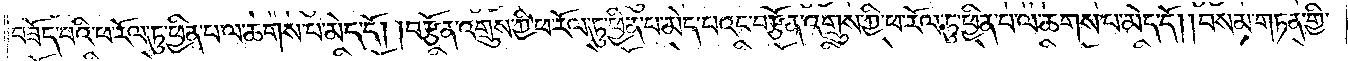བཟོད་པའི་ཕ་རོལ་ཏུ་ཕྱིན་པ་ལ་ཆགས་པ་མེད་དོ། །བརྩོན་འགྲུས་ཀྱི་ཕ་རོལ་ཏུ་ཕྱིན་པ་མེད་པའང་བརྩོན་འགྲུས་ཀྱི་ཕ་རོལ་ཏུ་ཕྱིན་པ་ལ་ཆགས་པ་མེད་དོ། །བསམ་གཏན་གྱི་
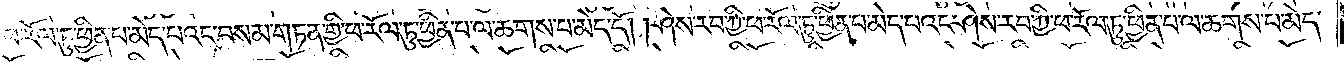ཕ་རོལ་ཏུ་ཕྱིན་པ་མེད་པའང་བསམ་གཏན་གྱི་ཕ་རོལ་ཏུ་ཕྱིན་པ་ལ་ཆགས་པ་མེད་དོ། །ཤེས་རབ་ཀྱི་ཕ་རོལ་ཏུ་ཕྱིན་པ་མེད་པའང་ཤེས་རབ་ཀྱི་ཕ་རོལ་ཏུ་ཕྱིན་པ་ལ་ཆགས་པ་མེད་
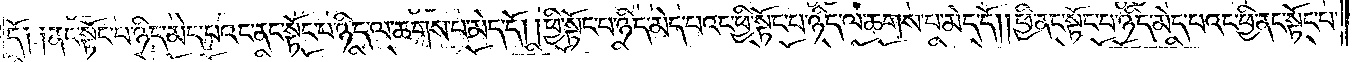དོ། །ནང་སྟོང་པ་ཉིད་མེད་པའང་ནང་སྟོང་པ་ཉིད་ལ་ཆགས་པ་མེད་དོ། །ཕྱི་སྟོང་པ་ཉིད་མེད་པའང་ཕྱི་སྟོང་པ་ཉིད་ལ་ཆགས་པ་མེད་དོ། །ཕྱི་ནང་སྟོང་པ་ཉིད་མེད་པའང་ཕྱི་ནང་སྟོང་པ་
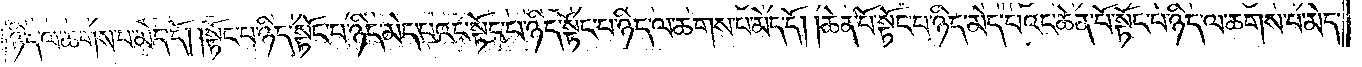ཉིད་ལ་ཆགས་པ་མེད་དོ། །སྟོང་པ་ཉིད་སྟོང་པ་ཉིད་མེད་པའང་སྟོང་པ་ཉིད་སྟོང་པ་ཉིད་ལ་ཆགས་པ་མེད་དོ། །ཆེན་པོ་སྟོང་པ་ཉིད་མེད་པའང་ཆེན་པོ་སྟོང་པ་ཉིད་ལ་ཆགས་པ་མེད་
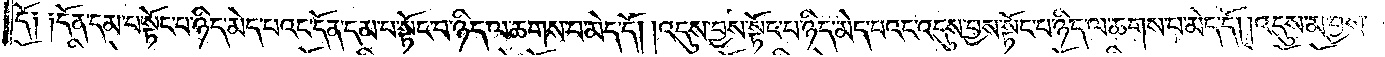དོ༑ ༑དོན་དམ་པ་སྟོང་པ་ཉིད་མེད་པའང་དོན་དམ་པ་སྟོང་པ་ཉིད་ལ་ཆགས་པ་མེད་དོ། །འདུས་བྱས་སྟོང་པ་ཉིད་མེད་པའང་འདུས་བྱས་སྟོང་པ་ཉིད་ལ་ཆགས་པ་མེད་དོ། །འདུས་མ་བྱས་
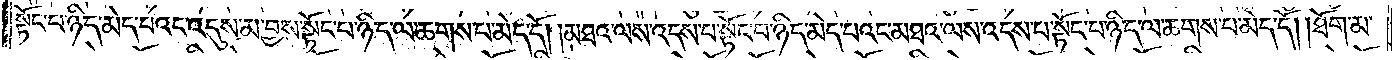སྟོང་པ་ཉིད་མེད་པའང་འདུས་མ་བྱས་སྟོང་པ་ཉིད་ལ་ཆགས་པ་མེད་དོ། །མཐའ་ལས་འདས་པ་སྟོང་པ་ཉིད་མེད་པའང་མཐའ་ལས་འདས་པ་སྟོང་པ་ཉིད་ལ་ཆགས་པ་མེད་དོ། །ཐོག་མ་
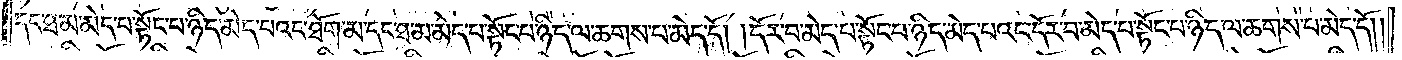དང་ཐ་མ་མེད་པ་སྟོང་པ་ཉིད་མེད་པའང་ཐོག་མ་དང་ཐ་མ་མེད་པ་སྟོང་པ་ཉིད་ལ་ཆགས་པ་མེད་དོ། །དོར་བ་མེད་པ་སྟོང་པ་ཉིད་མེད་པའང་དོར་བ་མེད་པ་སྟོང་པ་ཉིད་ལ་ཆགས་པ་མེད་དོ། །
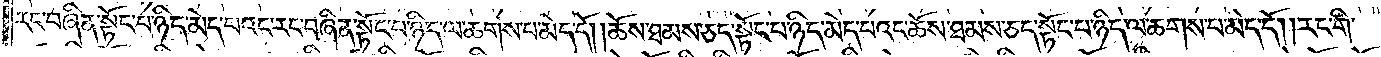རང་བཞིན་སྟོང་པ་ཉིད་མེད་པའང་རང་བཞིན་སྟོང་པ་ཉིད་ལ་ཆགས་པ་མེད་དོ། །ཆོས་ཐམས་ཅད་སྟོང་པ་ཉིད་མེད་པའང་ཆོས་ཐམས་ཅད་སྟོང་པ་ཉིད་ལ་ཆགས་པ་མེད་དོ། །རང་གི་
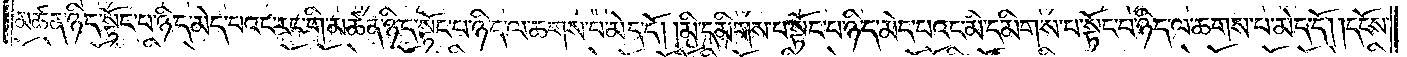མཚན་ཉིད་སྟོང་པ་ཉིད་མེད་པའང་རང་གི་མཚན་ཉིད་སྟོང་པ་ཉིད་ལ་ཆགས་པ་མེད་དོ། །མི་དམིགས་པ་སྟོང་པ་ཉིད་མེད་པའང་མི་དམིགས་པ་སྟོང་པ་ཉིད་ལ་ཆགས་པ་མེད་དོ། །དངོས་
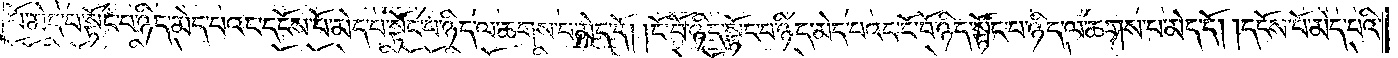པོ་མེད་པ་སྟོང་པ་ཉིད་མེད་པའང་དངོས་པོ་མེད་པ་སྟོང་པ་ཉིད་ལ་ཆགས་པ་མེད་དོ། །ངོ་བོ་ཉིད་སྟོང་པ་ཉིད་མེད་པའང་ངོ་བོ་ཉིད་སྟོང་པ་ཉིད་ལ་ཆགས་པ་མེད་དོ། །དངོས་པོ་མེད་པའི་
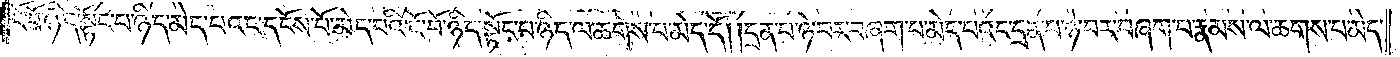ངོ་བོ་ཉིད་སྟོང་པ་ཉིད་མེད་པའང་དངོས་པོ་མེད་པའི་ངོ་བོ་ཉིད་སྟོང་པ་ཉིད་ལ་ཆགས་པ་མེད་དོ། །དྲན་པ་ཉེ་བར་བཞག་པ་མེད་པའང་དྲན་པ་ཉེ་བར་བཞག་པ་རྣམས་ལ་ཆགས་པ་མེད་
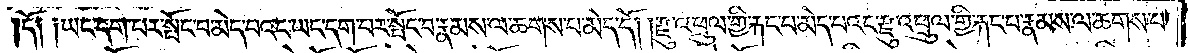དོ༑ ༑ཡང་དག་པར་སྤོང་བ་མེད་པའང་ཡང་དག་པར་སྤོང་བ་རྣམས་ལ་ཆགས་པ་མེད་དོ། །རྫུ་འཕྲུལ་གྱི་རྐང་པ་མེད་པའང་རྫུ་འཕྲུལ་གྱི་རྐང་པ་རྣམས་ལ་ཆགས་པ་
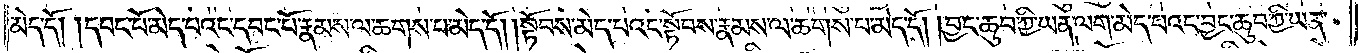མེད་དོ། །དབང་པོ་མེད་པའང་དབང་པོ་རྣམས་ལ་ཆགས་པ་མེད་དོ། །སྟོབས་མེད་པའང་སྟོབས་རྣམས་ལ་ཆགས་པ་མེད་དོ། །བྱང་ཆུབ་ཀྱི་ཡན་ལག་མེད་པའང་བྱང་ཆུབ་ཀྱི་ཡན་
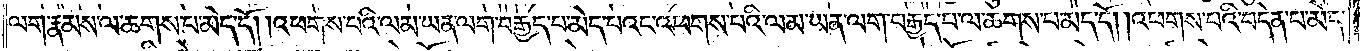ལག་རྣམས་ལ་ཆགས་པ་མེད་དོ། །འཕགས་པའི་ལམ་ཡན་ལག་བརྒྱད་པ་མེད་པའང་འཕགས་པའི་ལམ་ཡན་ལག་བརྒྱད་པ་ལ་ཆགས་པ་མེད་དོ། །འཕགས་པའི་བདེན་པ་མེད་
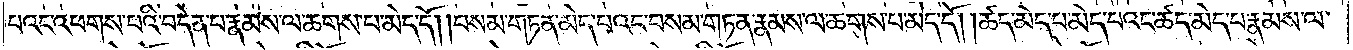པའང་འཕགས་པའི་བདེན་པ་རྣམས་ལ་ཆགས་པ་མེད་དོ། །བསམ་གཏན་མེད་པའང་བསམ་གཏན་རྣམས་ལ་ཆགས་པ་མེད་དོ། །ཚད་མེད་པ་མེད་པའང་ཚད་མེད་པ་རྣམས་ལ་
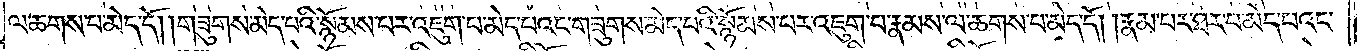ལ་ཆགས་པ་མེད་དོ། །གཟུགས་མེད་པའི་སྙོམས་པར་འཇུག་པ་མེད་པའང་གཟུགས་མེད་པའི་སྙོམས་པར་འཇུག་པ་རྣམས་ལ་ཆགས་པ་མེད་དོ། །རྣམ་པར་ཐར་པ་མེད་པའང་
